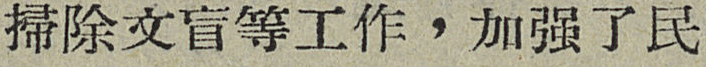掃除文盲等工作，加强了民
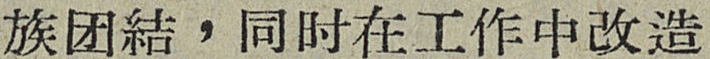族团結，同时在工作中改造
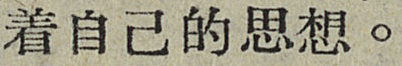着自己的思想。
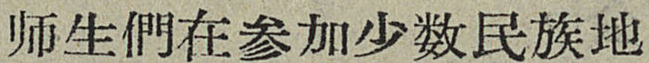师生們在参加少数民族地
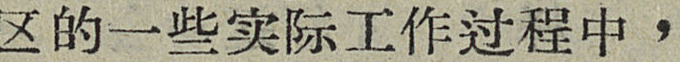区的一些实际工作过程中，
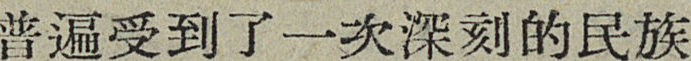普遍受到了一次深刻的民族
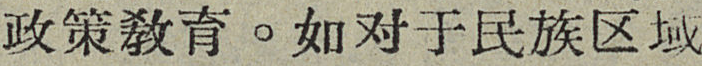政策敎育。如对于民族区域
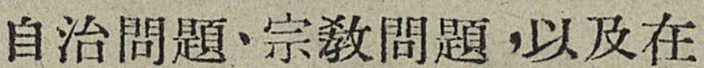自治問題、宗敎問題，以及在
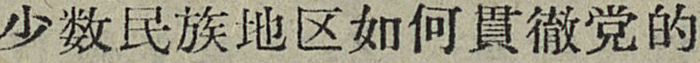少数民族地区如何貫徹党的
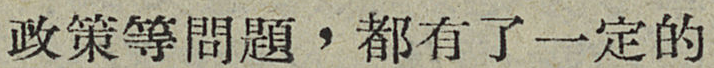政策等問題，都有了一定的
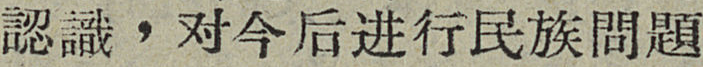認識，对今后进行民族問題
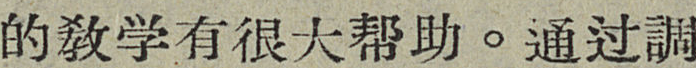的敎学有很大帮助。通过調
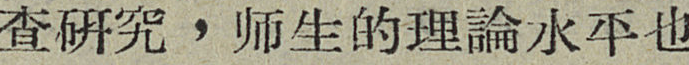查研究，师生的理論水平也
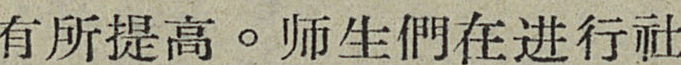有所提高。师生們在进行社
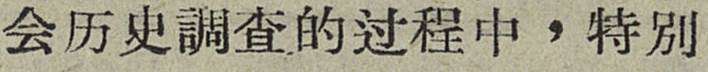会历史調查的过程中，特别
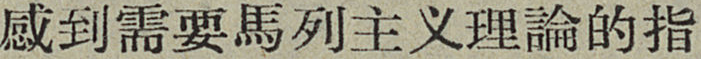感到需要馬列主义理論的指
